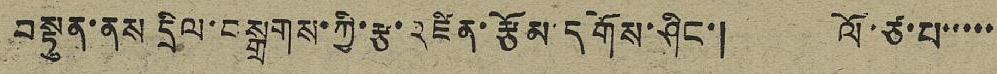བསྟུན་ནས་དྲིལ་བསྒྲགས་ཀྱི་རྩ་འཛིན་རྩོམ་དགོས་ཤིང་། ལོ་ཙ་པ་་་་་
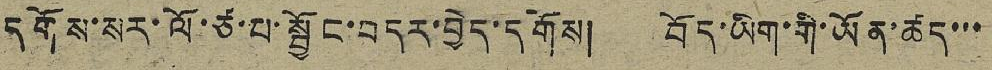དགོས་སར་ལོ་ཙ་པ་སྦྱོང་བདར་བྱེད་དགོས། བོད་ཡིག་གི་ཡོན་ཚད་་་
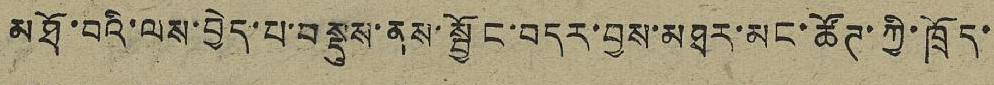མཐོ་བའི་ལས་བྱེད་པ་བསྡུས་ནས་སྦྱོང་བདར་བྱས་མཐར་མང་ཚོཊ་ཀྱི་ཁྲོད་
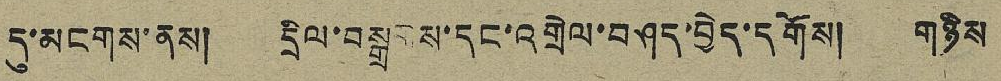དུ་མངགས་ནས། དྲིལ་བསྒྲགས་དང་འགྲེལ་བཤད་བྱེད་དགོས། གཉིས
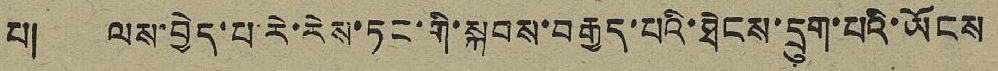པ། ལས་བྱེད་པ་རེ་རེས་ཏང་གི་སྐབས་བརྒྱད་པའི་ཐེངས་དྲུག་པའི་ཡོངས
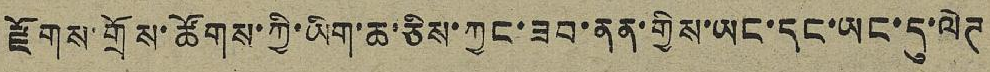རྫོགས་གྲོས་ཚོགས་ཀྱི་ཡིག་ཆ་ཅིས་ཀྱང་ཟབ་ནན་གྱིས་ཡང་དང་ཡང་དུ་ལེཊ
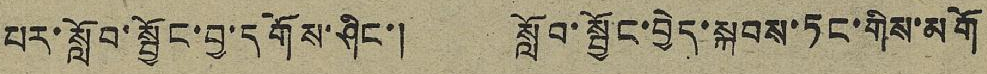པར་སློབ་སྦྱོང་བྱ་དགོས་ཤིང་། སློབ་སྦྱོང་བྱེད་སྐབས་ཏང་གིས་མགོ
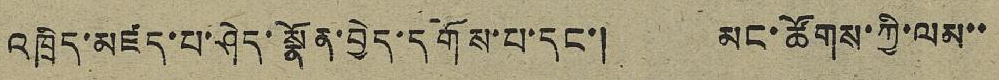འཁྲིད་མཛད་པ་ཤེད་སྣོན་བྱེད་དགོས་པ་དང་། མང་ཚོགས་ཀྱི་ལམ་་
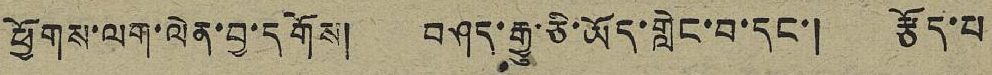ཕྱོགས་ལག་ལེན་བྱ་དགོས། བཤད་རྒྱུ་ཅི་ཡོད་གླེང་བ་དང་། རྩོད་པ
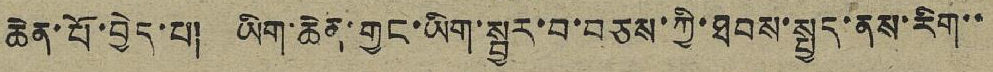ཆེན་པོ་བྱེད་པ། ཡིག་ཆེན་གྱང་ཡིག་སྦྱར་བ་བཅས་ཀྱི་ཐབས་སྤྱད་ནས་རིག་་
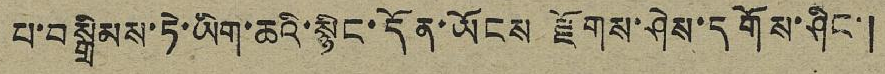པ་བསྒྲིམས་ཏེ་ཡིག་ཆའི་སྙིང་དོན་ཡོངས རྫོགས་ཤེས་དགོས་ཤིང་།
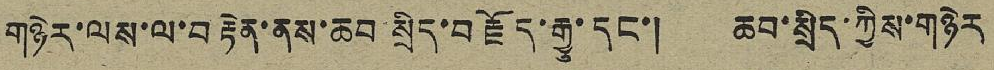གཉེར་ལས་ལ་བརྟེན་ནས་ཆབ སྲིད་བརྗོད་རྒྱུ་དང་། ཆབ་སྲིད་ཀྱིས་གཉེར
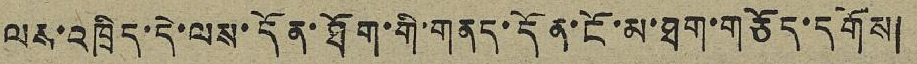ལས་འཁྲིད་དེ་ལས་དོན་ཐོག་གི་གནད་དོན་ངོ་མ་ཐག་གཅོད་དགོས།
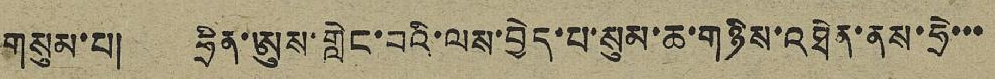གསུམ་པ། ཧྲིན་ཨུས་གླེང་བའི་ལས་བྱེད་པ་སུམ་ཆ་གཉིས་འཐེན་ནས་ཧྲེ་་་
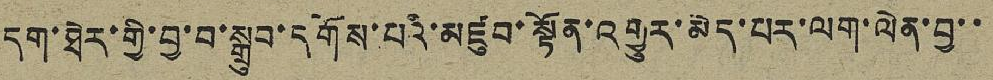དག་ཐེར་གྱི་བྱ་བ་སྒྲུབ་དགོས་པའི་མཛུབ་སྟོན་འགྱུར་མེད་པར་ལག་ལེན་བྱ་་
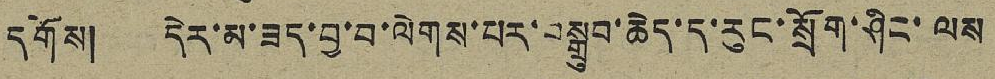དགོས། དེར་མ་ཟད་བྱ་བ་ལེགས་པར་བསྒྲུབ་ཆེད་ད་རུང་སྲོག་ཤིང་ལས
